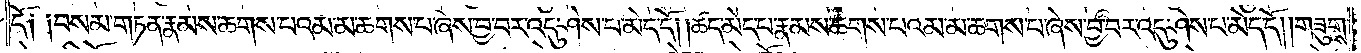དོ༑ ༑བསམ་གཏན་རྣམས་ཆགས་པའམ་མ་ཆགས་པ་ཞེས་བྱ་བར་འདུ་ཤེས་པ་མེད་དོ། །ཚད་མེད་པ་རྣམས་ཆགས་པའམ་མ་ཆགས་པ་ཞེས་བྱ་བར་འདུ་ཤེས་པ་མེད་དོ། །གཟུགས་
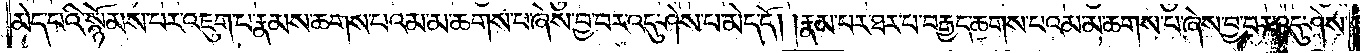མེད་པའི་སྙོམས་པར་འཇུག་པ་རྣམས་ཆགས་པའམ་མ་ཆགས་པ་ཞེས་བྱ་བར་འདུ་ཤེས་པ་མེད་དོ། །རྣམ་པར་ཐར་པ་བརྒྱད་ཆགས་པའམ་མ་ཆགས་པ་ཞེས་བྱ་བར་འདུ་ཤེས་
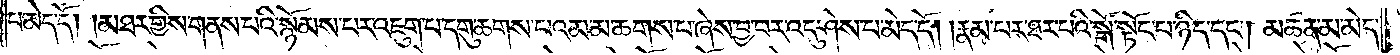པ་མེད་དོ། །མཐར་གྱིས་གནས་པའི་སྙོམས་པར་འཇུག་པ་དགུ་ཆགས་པའམ་མ་ཆགས་པ་ཞེས་བྱ་བར་འདུ་ཤེས་པ་མེད་དོ། །རྣམ་པར་ཐར་པའི་སྒོ་སྟོང་པ་ཉིད་དང༌། མཚན་མ་མེད་
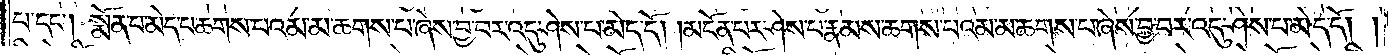པ་དང༌། སྨོན་པ་མེད་པ་ཆགས་པའམ་མ་ཆགས་པ་ཞེས་བྱ་བར་འདུ་ཤེས་པ་མེད་དོ། །མངོན་པར་ཤེས་པ་རྣམས་ཆགས་པའམ་མ་ཆགས་པ་ཞེས་བྱ་བར་འདུ་ཤེས་པ་མེད་དོ། །
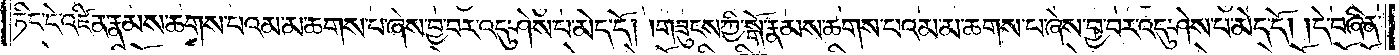ཏིང་ངེ་འཛིན་རྣམས་ཆགས་པའམ་མ་ཆགས་པ་ཞེས་བྱ་བར་འདུ་ཤེས་པ་མེད་དོ། །གཟུངས་ཀྱི་སྒོ་རྣམས་ཆགས་པའམ་མ་ཆགས་པ་ཞེས་བྱ་བར་འདུ་ཤེས་པ་མེད་དོ། །དེ་བཞིན་
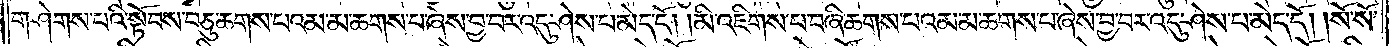གཤེགས་པའི་སྟོབས་བཅུ་ཆགས་པའམ་མ་ཆགས་པ་ཞེས་བྱ་བར་འདུ་ཤེས་པ་མེད་དོ། །མི་འཇིགས་པ་བཞི་ཆགས་པའམ་མ་ཆགས་པ་ཞེས་བྱ་བར་འདུ་ཤེས་པ་མེད་དོ། །སོ་སོ་
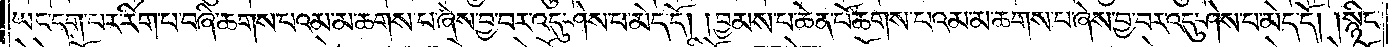ཡང་དག་པར་རིག་པ་བཞི་ཆགས་པའམ་མ་ཆགས་པ་ཞེས་བྱ་བར་འདུ་ཤེས་པ་མེད་དོ། །བྱམས་པ་ཆེན་པོ་ཆགས་པའམ་མ་ཆགས་པ་ཞེས་བྱ་བར་འདུ་ཤེས་པ་མེད་དོ། །སྙིང་
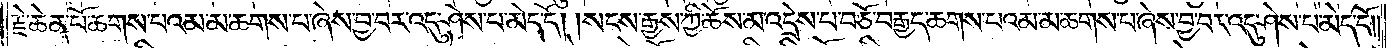རྗེ་ཆེན་པོ་ཆགས་པའམ་མ་ཆགས་པ་ཞེས་བྱ་བར་འདུ་ཤེས་པ་མེད་དོ། །སངས་རྒྱས་ཀྱི་ཆོས་མ་འདྲེས་པ་བཅོ་བརྒྱད་ཆགས་པའམ་མ་ཆགས་པ་ཞེས་བྱ་བར་འདུ་ཤེས་པ་མེད་དོ། །
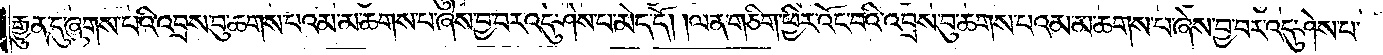རྒྱུན་དུ་ཞུགས་པའི་འབྲས་བུ་ཆགས་པའམ་མ་ཆགས་པ་ཞེས་བྱ་བར་འདུ་ཤེས་པ་མེད་དོ། །ལན་གཅིག་ཕྱིར་འོང་བའི་འབྲས་བུ་ཆགས་པའམ་མ་ཆགས་པ་ཞེས་བྱ་བར་འདུ་ཤེས་པ་
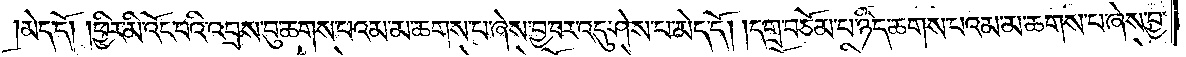མེད་དོ། །ཕྱིར་མི་འོང་བའི་འབྲས་བུ་ཆགས་པའམ་མ་ཆགས་པ་ཞེས་བྱ་བར་འདུ་ཤེས་པ་མེད་དོ། །དགྲ་བཅོམ་པ་ཉིད་ཆགས་པའམ་མ་ཆགས་པ་ཞེས་བྱ་
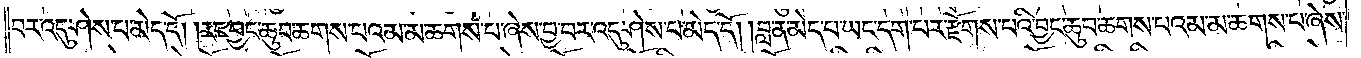བར་འདུ་ཤེས་པ་མེད་དོ། །རང་བྱང་ཆུབ་ཆགས་པའམ་མ་ཆགས་པ་ཞེས་བྱ་བར་འདུ་ཤེས་པ་མེད་དོ། །བླ་ན་མེད་པ་ཡང་དག་པར་རྫོགས་པའི་བྱང་ཆུབ་ཆགས་པའམ་མ་ཆགས་པ་ཞེས་
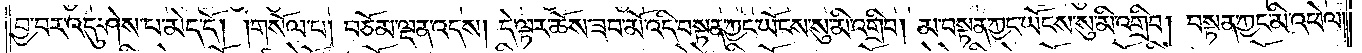བྱ་བར་འདུ་ཤེས་པ་མེད་དོ། །གསོལ་པ། བཅོམ་ལྡན་འདས། དེ་ལྟར་ཆོས་ཟབ་མོ་འདི་བསྟན་ཀྱང་ཡོངས་སུ་མི་འགྲིབ། མ་བསྟན་ཀྱང་ཡོངས་སུ་མི་འགྲིབ། བསྟན་ཀྱང་མི་འཕེལ།
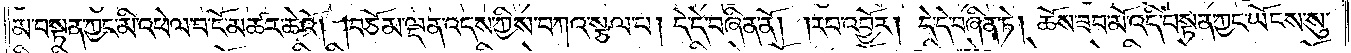མ་བསྟན་ཀྱང་མི་འཕེལ་བ་ངོ་མཚར་ཆེའོ། །བཅོམ་ལྡན་འདས་ཀྱིས་བཀའ་སྩལ་པ། དེ་དེ་བཞིན་ནོ། །རབ་འབྱོར། དེ་དེ་བཞིན་ཏེ། ཆོས་ཟབ་མོ་འདི་བསྟན་ཀྱང་ཡོངས་སུ་
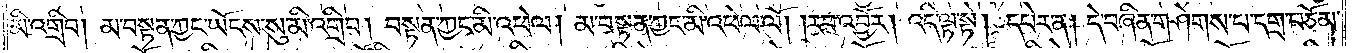མི་འགྲིབ། མ་བསྟན་ཀྱང་ཡོངས་སུ་མི་འགྲིབ། བསྟན་ཀྱང་མི་འཕེལ། མ་བསྟན་ཀྱང་མི་འཕེལ་ལོ། །རབ་འབྱོར། འདི་ལྟ་སྟེ། དཔེར་ན། དེ་བཞིན་གཤེགས་པ་དགྲ་བཅོམ་
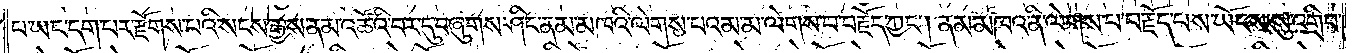པ་ཡང་དག་པར་རྫོགས་པའི་སངས་རྒྱས་ནམ་འཚོའི་བར་དུ་བཞུགས་ཤིང་ནམ་མཁའི་ལེགས་པའམ་མ་ལེགས་པ་བརྗོད་ཀྱང༌། ནམ་མཁའ་ནི་ལེགས་པ་བརྗོད་པས་ཡོངས་སུ་འགྲིབ་
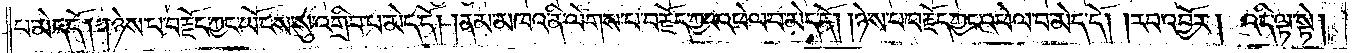པ་མེད་དོ། །ཉེས་པ་བརྗོད་ཀྱང་ཡོངས་སུ་འགྲིབ་པ་མེད་དོ། །ནམ་མཁའ་ནི་ལེགས་པ་བརྗོད་ཀྱང་འཕེལ་བ་མེད་དོ། །ཉེས་པ་བརྗོད་ཀྱང་འཕེལ་བ་མེད་དོ། །རབ་འབྱོར། འདི་ལྟ་སྟེ།
